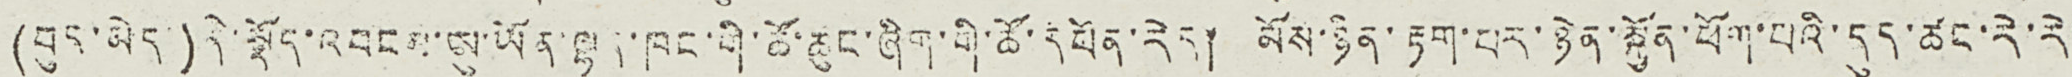(བུད་མེད་)དེ་སྡོད་འབངས་ཨུ་ཡོན་ལྷན་ཁང་གི་ཚོ་ཆུང་ཞིག་གི་ཚོ་དཔོན་རེད། མོས་ཉིན་རྟག་པར་ཉེན་སྐྱོན་ཕོག་པའི་དུད་ཚང་རེ་རེ་
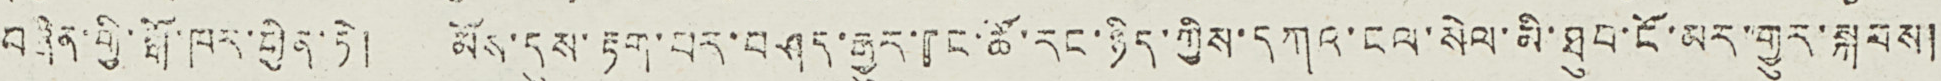བཞིན་གྱི་སྒོ་ཁར་ཕྱིན་ཏེ། མོས་དུས་རྟག་པར་བཤད་རྒྱུར་『ང་ཚོ་རང་ཉིད་ཀྱིས་དཀའ་ངལ་སེལ་མི་ཐུབ་ངོ་མར་གྱུར་སྐབས།
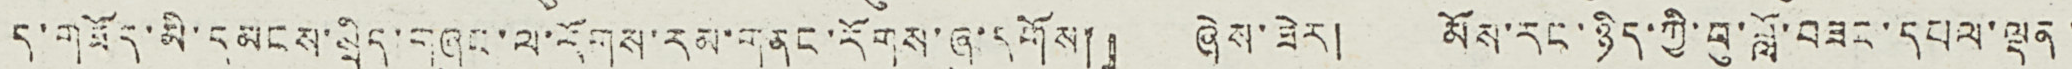ད་གཟོད་མི་དམངས་སྲིད་གཞུང་ལ་རོགས་རམ་གནང་རོགས་ཞུ་དགོས།』 ཞེས་ཟེར། མོས་རང་ཉིད་ཀྱི་བུ་བློ་བཟང་དཔལ་ལྡན་
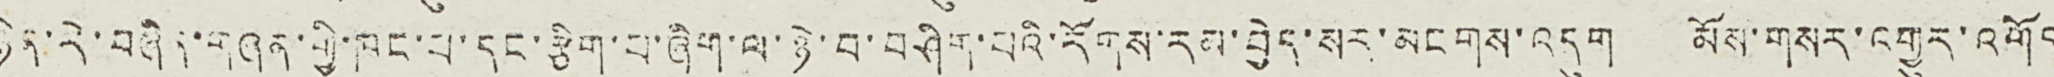ཉིན་རེ་བཞིན་གྱི་ཁང་པ་དང་རྩིག་པ་ཞིག་ལ་ཉེ་བ་བཤིག་པའི་རོགས་རམ་བྱེད་སར་མངགས་འདུག མོས་གསར་འགྱུར་འགོད
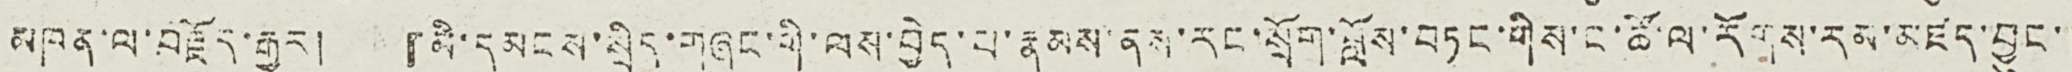མཁན་ལ་བརྗོད་རྒྱུར། 『མི་དམངས་སྲིད་གཞུང་གི་ལས་བྱེད་པ་རྣམས་རང་སྲོག་བློས་བཏང་གིས་ང་ཚོ་ལ་རོགས་རམ་མཛད་བྱུང་།
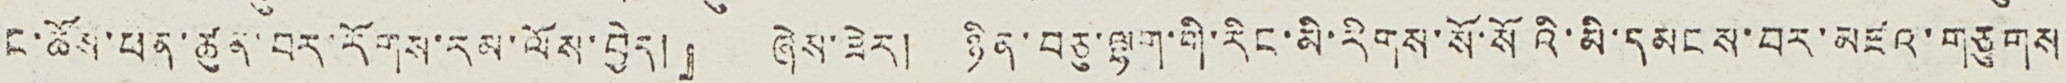ང་ཚོས་ཕན་ཚུན་བར་རོགས་རམ་ལོས་བྱེད།』 ཞེས་ཟེར། ཉིན་བཅུ་ལྷག་གི་རིང་མི་རིགས་སོ་སོའི་མི་དམངས་བར་མཛའ་གཅུགས་
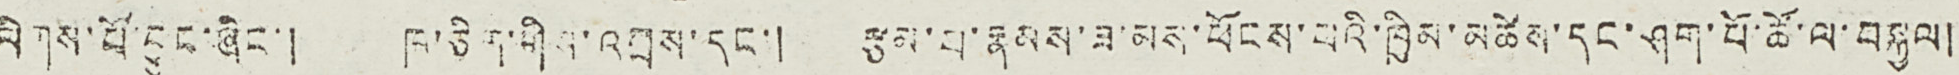ལིགས་པོ་བྱུང་ཞིང་། ཁ་ཅིག་གིས་འབྲས་དང་། རྩམ་པ་རྣམས་ཟ་མས་ཕོངས་པའི་ཁྱིམ་མཚེས་དང་ཤག་པོ་ཚོ་ལ་བསྐྱལ།
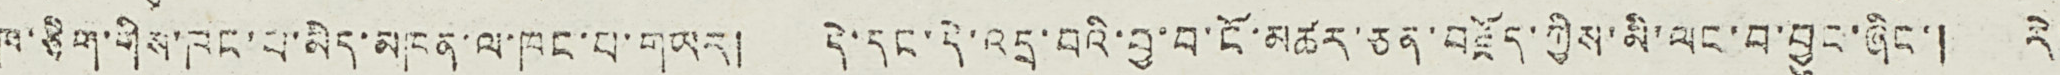ཁ་ཅིག་གིས་ཁང་པ་མེད་མཁན་ལ་ཁང་པ་གཡར། དེ་དང་དེ་འདྲ་བའི་བྱ་བ་ངོ་མཚར་ཅན་བརྗོད་ཀྱིས་མི་ལང་བ་བྱུང་ཞིང་། རེ་
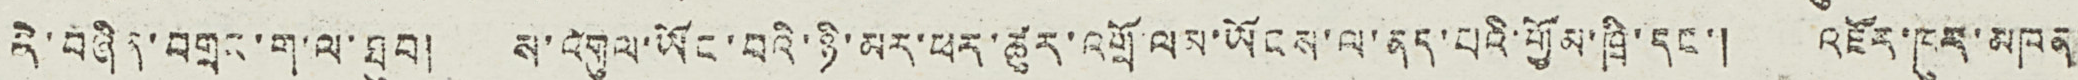རེ་བཞིན་བགྲང་ག་ལ་ཐུབ། ས་འགུལ་ཡོང་བའི་ཉི་མར་ཕར་ཚུར་འགྲོ་ལམ་ཡོངས་ལ་ནད་པའི་གྱོམ་ཁྲི་དང་། འཛོར་ཁུར་མཁན་
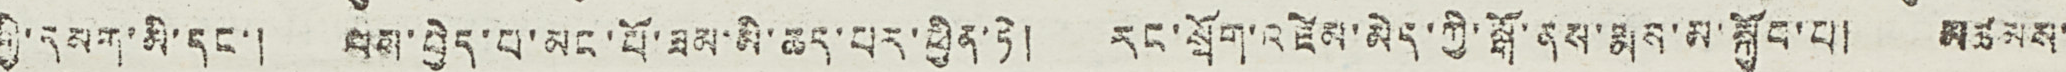གྱི་དམག་མི་དང་། ལས་བྱེད་པ་མང་པོ་ཟམ་མི་ཆད་པར་ཕྱིན་ཏེ། རང་སྲོག་འཛེམ་མེད་ཀྱི་སྒོ་ནས་རྨས་མ་སྐྱོང་པ། མཚམས་
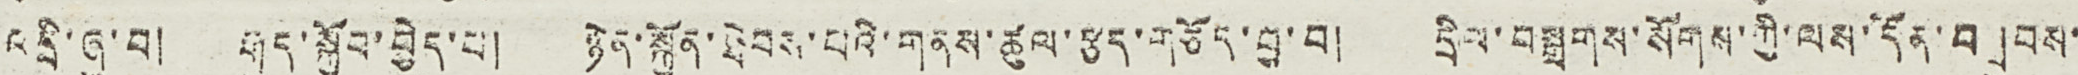འདྲི་ཞུ་བ། རྒུད་སྐྱོབ་བྱེད་པ། ཉེན་སྐྱོན་ཐེབས་པའི་གནས་ཚུལ་རྩད་གཙོད་བྱ་བ། དྲིལ་བསྒྲགས་སོགས་ཀྱི་ལས་དོན་བགྲུབས་
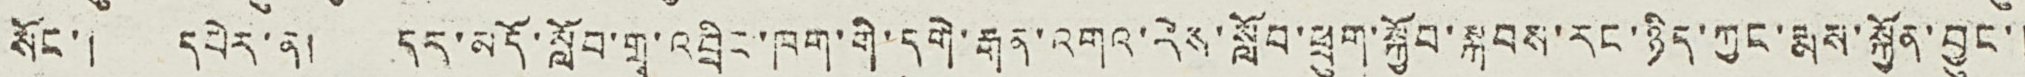སོང་། དཔེར་ན། དར་མདོ་སློབ་གྲྭ་འབྲིང་ཁག་གི་དགེ་རྒན་འགའ་རེས་སློབ་ཕྲུག་སྐྱོབ་སྐབས་རང་ཉིད་ཀྱང་རྨས་སྐྱོན་བྱུང་།
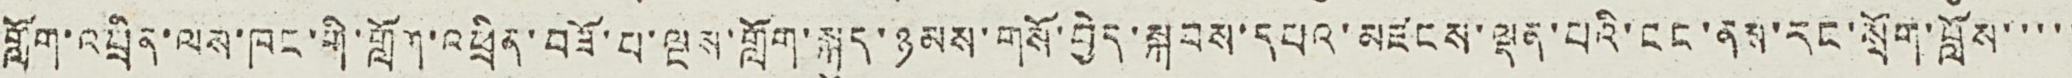གློག་འཕྲིན་ལས་ཁང་གི་གློག་འཕྲིན་བཟོ་པ་ལྔས་གློག་སྐུད་ཉམས་གསོ་བྱེད་སྐབས་དཔའ་མཛངས་ལྡན་པའི་ངང་ནས་རང་སྲོག་བློས་་་་་
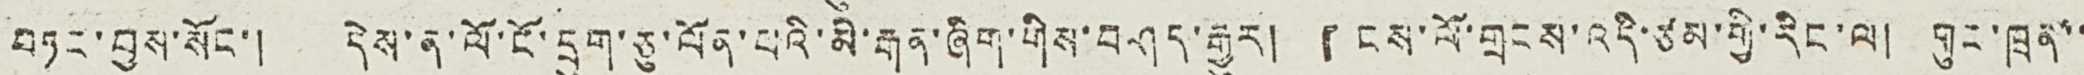བཏང་བྱས་སོང་། དེས་ན་ལོ་ངོ་དྲུག་ཅུ་ལོན་པའི་མི་རྒན་ཞིག་གིས་བཤད་རྒྱུར། 『ངས་ལོ་གྲངས་འདི་ཙམ་གྱི་རིང་ལ། གུང་ཁྲན་་
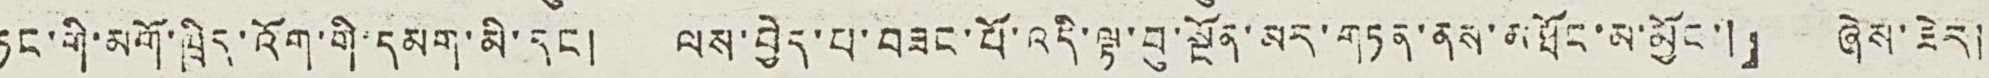ཏང་གི་མགོ་ཁྲིད་འོག་གི་དམག་མི་དང ། ལས་བྱེད་པ་བཟང་པོ་འདི་ལྟ་བུ་སྔོན་མར་གཏན་ནས་མཐོང་མ་མྱོང་།』 ཞེས་ཟེར།
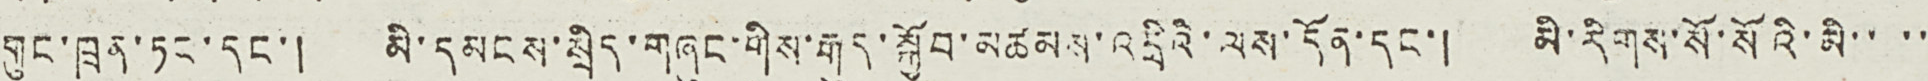གུང་ཁྲན་ཏང་དང་། མི་དམངས་སྲིད་གཞུང་གིས་རྒུད་སྐྱོབ་མཚམས་འདྲིའི་ལས་དོན་དང་། མི་རིགས་སོ་སོའི་མི་་་་
